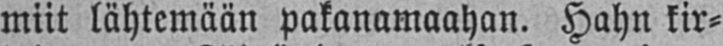miit lähtemään pakanamaahan. Hahn kir-
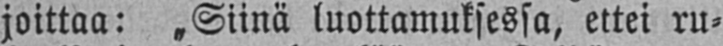joittaa: „Siinä luottamuksessa, ettei ru-
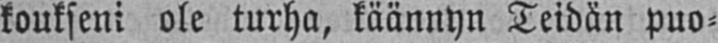koukseni ole turha, käännyn Teidän puo-
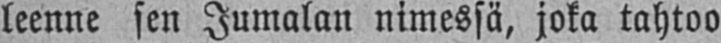leenne sen Jumalan nimessä, joka tahtoo
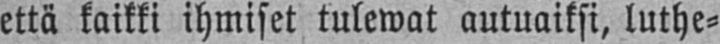että kaikki ihmiset tulewat autuaiksi, luthe-
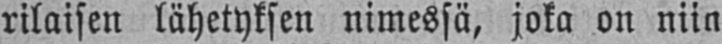rilaisen lähetyksen nimessä, joka on niin
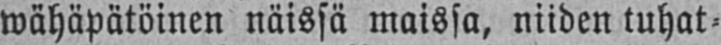wähäpätöinen näissä maissa, niiden tuhat-
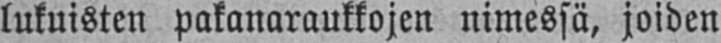lukuisten pakanaraukkojen nimessä, joiden
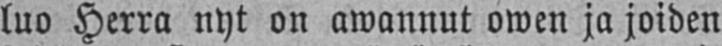luo Herra nyt on awannut owen ja joiden
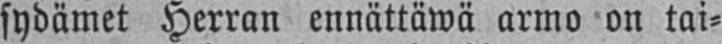sydämet Herran ennättäwä armo on tai-
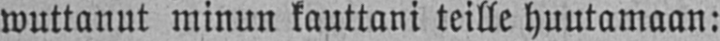wuttanut minun kauttani teille huutamaan:
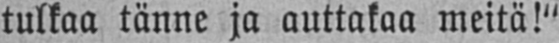tulkaa tänne ja auttakaa meitä!"
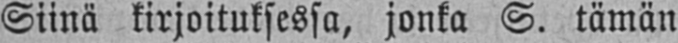Siinä kirjoituksessa, jonka S. tämän
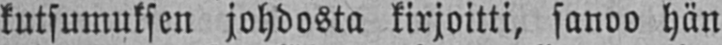kutsumuksen johdosta kirjoitti, sanoo hän
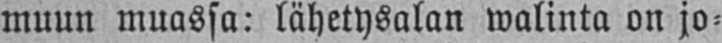muun muassa: lähetysalan walinta on jo-
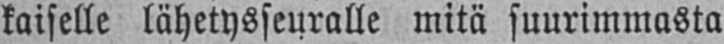kaiselle lähetysseuralle mitä suurimmasta
